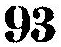93
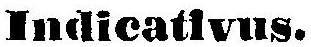Indicativus.
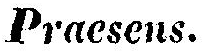Praesens.
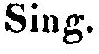Sing.
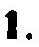1.
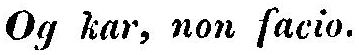Og kar, non facio.
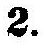2.
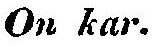On kar.
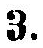3.
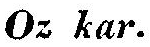Oz kar.
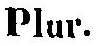Plur.
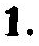1.
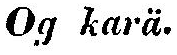Og karä.
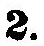2.
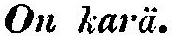On karä.
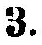3.
